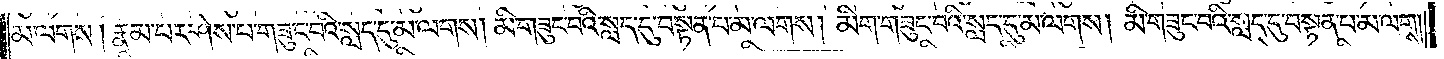མ་ལགས། རྣམ་པར་ཤེས་པ་གཟུང་བའི་སླད་དུ་མ་ལགས། མི་གཟུང་བའི་སླད་དུ་བསྟན་པ་མ་ལགས། མིག་གཟུང་བའི་སླད་དུ་མ་ལགས། མི་གཟུང་བའི་སླད་དུ་བསྟན་པ་མ་ལགས།
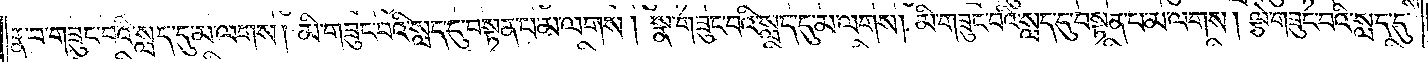རྣ་བ་གཟུང་བའི་སླད་དུ་མ་ལགས། མི་གཟུང་བའི་སླད་དུ་བསྟན་པ་མ་ལགས། སྣ་གཟུང་བའི་སླད་དུ་མ་ལགས། མི་གཟུང་བའི་སླད་དུ་བསྟན་པ་མ་ལགས། ལྕེ་གཟུང་བའི་སླད་དུ་
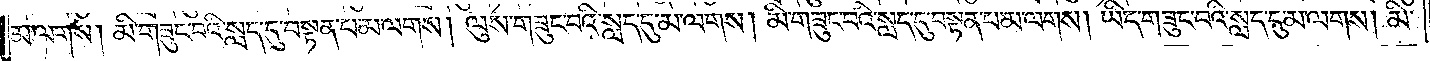མ་ལགས། མི་གཟུང་བའི་སླད་དུ་བསྟན་པ་མ་ལགས། ལུས་གཟུང་བའི་སླད་དུ་མ་ལགས། མི་གཟུང་བའི་སླད་དུ་བསྟན་པ་མ་ལགས། ཡིད་གཟུང་བའི་སླད་དུ་མ་ལགས། མི་
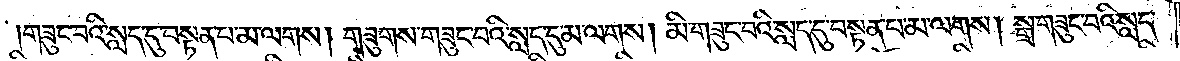གཟུང་བའི་སླད་དུ་བསྟན་པ་མ་ལགས། གཟུགས་གཟུང་བའི་སླད་དུ་མ་ལགས། མི་གཟུང་བའི་སླད་དུ་བསྟན་པ་མ་ལགས། སྒྲ་གཟུང་བའི་སླད་
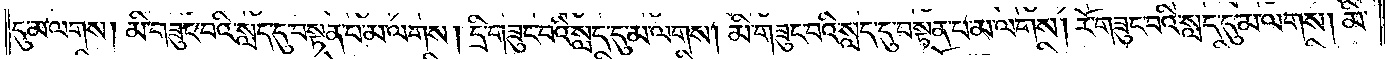དུ་མ་ལགས། མི་གཟུང་བའི་སླད་དུ་བསྟན་པ་མ་ལགས། དྲི་གཟུང་བའི་སླད་དུ་མ་ལགས། མི་གཟུང་བའི་སླད་དུ་བསྟན་པ་མ་ལགས། རོ་གཟུང་བའི་སླད་དུ་མ་ལགས། མི་
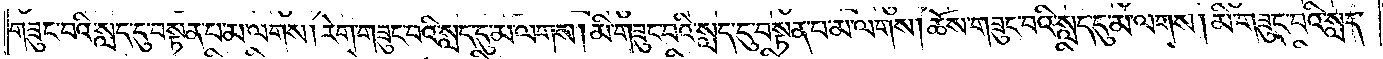གཟུང་བའི་སླད་དུ་བསྟན་པ་མ་ལགས། རེག་གཟུང་བའི་སླད་དུ་མ་ལགས། མི་གཟུང་བའི་སླད་དུ་བསྟན་པ་མ་ལགས། ཆོས་གཟུང་བའི་སླད་དུ་མ་ལགས། མི་གཟུང་བའི་སླད་
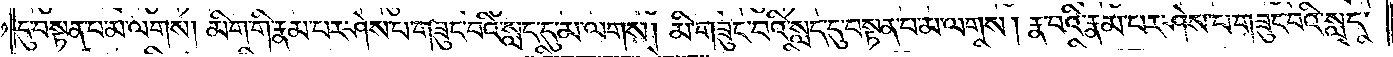དུ་བསྟན་པ་མ་ལགས། མིག་གི་རྣམ་པར་ཤེས་པ་གཟུང་བའི་སླད་དུ་མ་ལགས། མི་གཟུང་བའི་སླད་དུ་བསྟན་པ་མ་ལགས། རྣ་བའི་རྣམ་པར་ཤེས་པ་གཟུང་བའི་སླད་
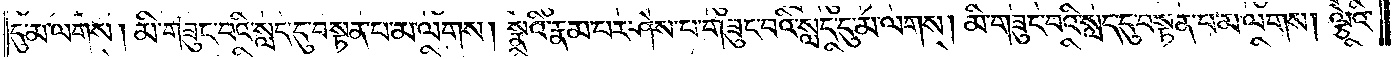དུ་མ་ལགས། མི་གཟུང་བའི་སླད་དུ་བསྟན་པ་མ་ལགས། སྣའི་རྣམ་པར་ཤེས་པ་གཟུང་བའི་སླད་དུ་མ་ལགས། མི་གཟུང་བའི་སླད་དུ་བསྟན་པ་མ་ལགས། ལྕེའི་
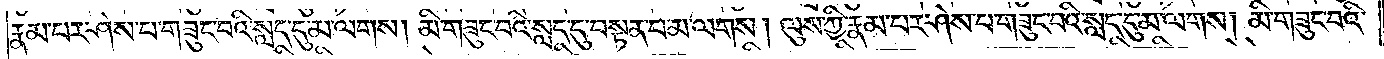རྣམ་པར་ཤེས་པ་གཟུང་བའི་སླད་དུ་མ་ལགས། མི་གཟུང་བའི་སླད་དུ་བསྟན་པ་མ་ལགས། ལུས་ཀྱི་རྣམ་པར་ཤེས་པ་གཟུང་བའི་སླད་དུ་མ་ལགས། མི་གཟུང་བའི་
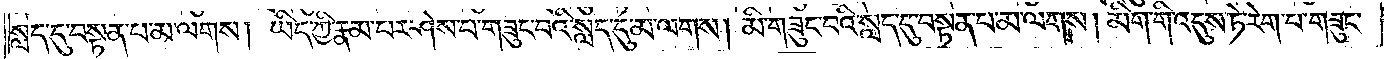སླད་དུ་བསྟན་པ་མ་ལགས། ཡིད་ཀྱི་རྣམ་པར་ཤེས་པ་གཟུང་བའི་སླད་དུ་མ་ལགས། མི་གཟུང་བའི་སླད་དུ་བསྟན་པ་མ་ལགས། མིག་གི་འདུས་ཏེ་རེག་པ་གཟུང་
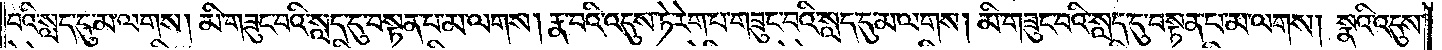བའི་སླད་དུ་མ་ལགས། མི་གཟུང་བའི་སླད་དུ་བསྟན་པ་མ་ལགས། རྣ་བའི་འདུས་ཏེ་རེག་པ་གཟུང་བའི་སླད་དུ་མ་ལགས། མི་གཟུང་བའི་སླད་དུ་བསྟན་པ་མ་ལགས། སྣའི་འདུས་
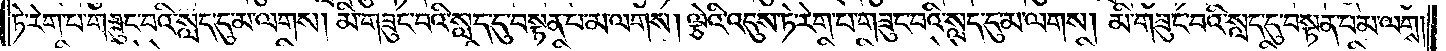ཏེ་རེག་པ་གཟུང་བའི་སླད་དུ་མ་ལགས། མི་གཟུང་བའི་སླད་དུ་བསྟན་པ་མ་ལགས། ལྕེའི་འདུས་ཏེ་རེག་པ་གཟུང་བའི་སླད་དུ་མ་ལགས། མི་གཟུང་བའི་སླད་དུ་བསྟན་པ་མ་ལགས།
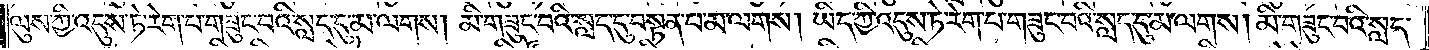ལུས་ཀྱི་འདུས་ཏེ་རེག་པ་གཟུང་བའི་སླད་དུ་མ་ལགས། མི་གཟུང་བའི་སླད་དུ་བསྟན་པ་མ་ལགས། ཡིད་ཀྱི་འདུས་ཏེ་རེག་པ་གཟུང་བའི་སླད་དུ་མ་ལགས། མི་གཟུང་བའི་སླད་
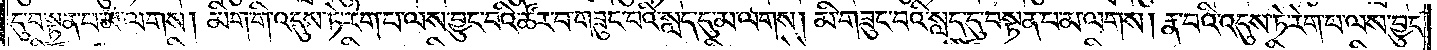དུ་བསྟན་པ་མ་ལགས། མིག་གི་འདུས་ཏེ་རེག་པ་ལས་བྱུང་བའི་ཚོར་བ་གཟུང་བའི་སླད་དུ་མ་ལགས། མི་གཟུང་བའི་སླད་དུ་བསྟན་པ་མ་ལགས། རྣ་བའི་འདུས་ཏེ་རེག་པ་ལས་བྱུང་
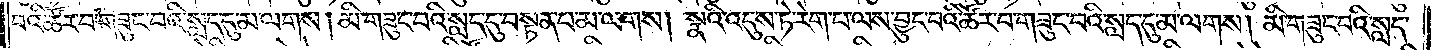བའི་ཚོར་བ་གཟུང་བའི་སླད་དུ་མ་ལགས། མི་གཟུང་བའི་སླད་དུ་བསྟན་པ་མ་ལགས། སྣའི་འདུས་ཏེ་རེག་པ་ལས་བྱུང་བའི་ཚོར་བ་གཟུང་བའི་སླད་དུ་མ་ལགས། མི་གཟུང་བའི་སླད་
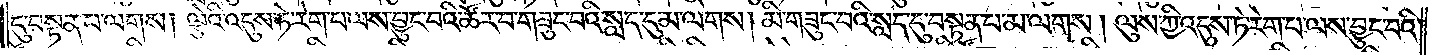དུ་བསྟན་པ་ལགས། ལྕེའི་འདུས་ཏེ་རེག་པ་ལས་བྱུང་བའི་ཚོར་བ་གཟུང་བའི་སླད་དུ་མ་ལགས། མི་གཟུང་བའི་སླད་དུ་བསྟན་པ་མ་ལགས། ལུས་ཀྱི་འདུས་ཏེ་རེག་པ་ལས་བྱུང་བའི་
